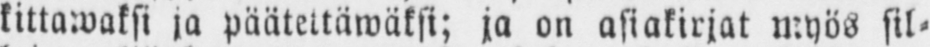kittawaksi ja päätettäwäksi; ja on asiakirjat myös sil-
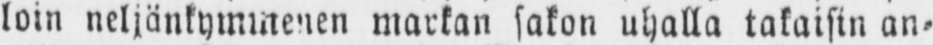loin neljänkymmenen markan sakon uhalla takaisin an-
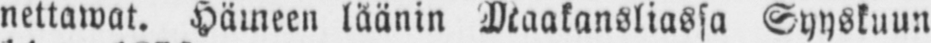nettawat. Hämeen läänin Maakansliassa Syyskuun
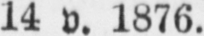14 v. 1876.
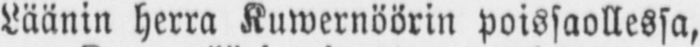Läänin herra Kuwernöörin poissaollessa,
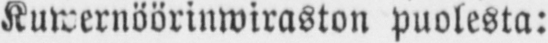Kuwernöörinwiraston puolesta:
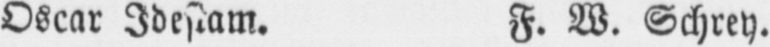Oscar Idestam. F. W. Schrey.
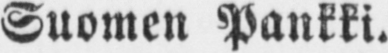Suomen Pankki.
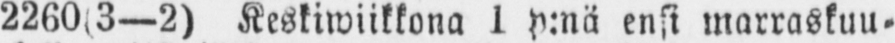2260(3 —2) Keskiwiikkona 1 p:nä ensi marraskuu-
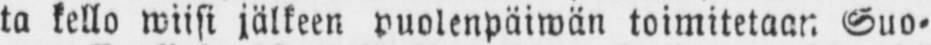ta kello wiisi jälkeen puolenpäiwän toimitetaan Suo-
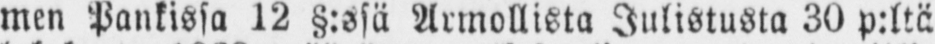men Pankissa 12 §:ssä Armollista Julistusta 30 p:ltä
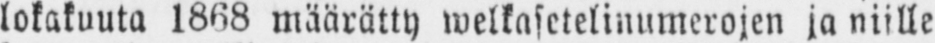lokakuuta 1868 määrätty welkasetelinumerojen ja niille
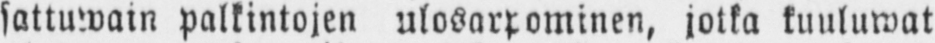sattuwain palkintojen ulosarpominen, jotka kuuluwat
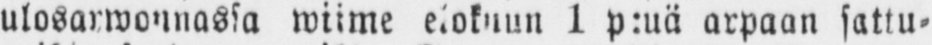ulosarwonnassa wiime elokuun 1 p:uä arpaan sattu-
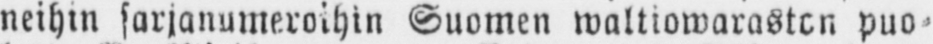neihin sarjanumeroihin Suomen waltiowarasten puo-
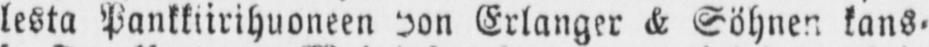lesta Pankkiirihuoneen von Erlanger & Söhnen kans-
